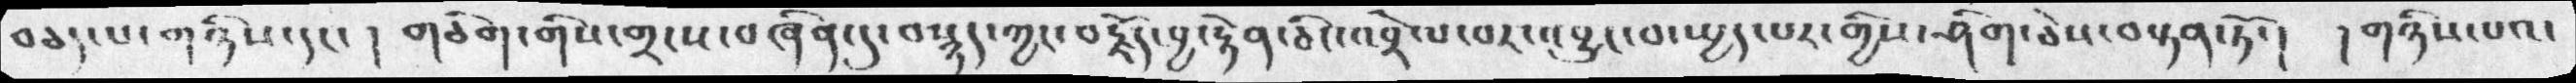བཅད་པ་གཉིས་དང་། གཅིག་གིས་གྲངས་བཞིན་དུ་བསྙད་ཀྱང་བརྗོད་བྱ་རྟེན་ཅིང་འབྲེལ་བར་འབྱུང་བ་སྤྱད་པར་གྱིས་ཤིག་ཅེས་བསྟན་ཏོ་། །གཉིས་པའ་
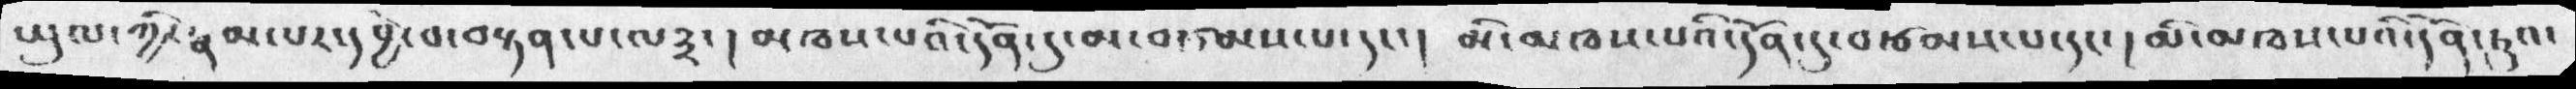ཡུལ་ཀྱི་རྣམ་པར་དབྱེ་བ་བསྟན་པ་ལ༣་། མཁས་པའི་དོན་དུ་མ་བཙམས་པ་དང་། མི་མཁས་པའི་དོན་དུ་བརྩམས་པ་དང་། མི་མཁས་པའི་དོན་ཏུའ་
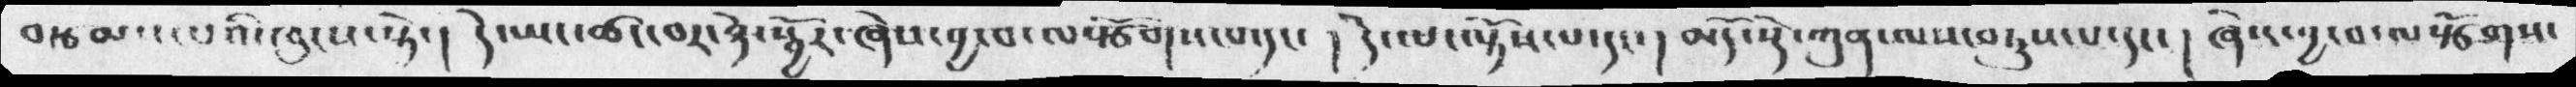བརྩམས་པའི་ཁུངས་སྟེ་། དེ་ཡང་ཚང་བར་ཉེ་སྦྱོར་ཞེས་བྱ་བ་ལསྩོགས་པ་དང་།  དེ་ལ་ལྟོས་པ་དང་། མདོ་སྡེ་ཀུན་ལས་བཏུས་པ་དང་། ཞེས་བྱ་བ་ལསྩོགས་
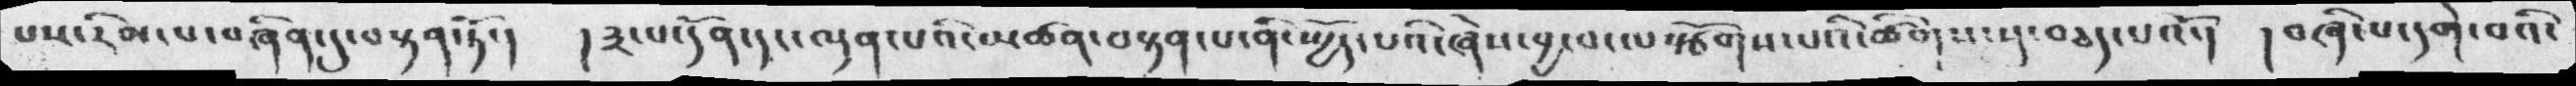པས་རིམ་པ་བཞིན་དུ་བསྟན་ཏོ་།   །༣་པ་དོན་དང་ལྡན་པའི་མཚན་བསྟན་པ་ནི་སྤྱོད་པའི་ཞེས་བྱ་བ་ལསྩོགས་པའི་ཚིགས་སུ་བཅད་པའོ་། །བཞི་པ་དགེ་བའི་
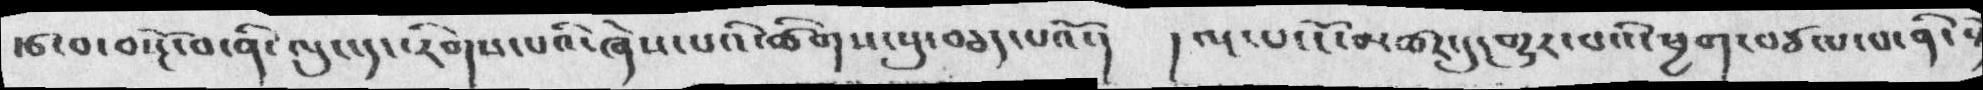རྩ་བ་བསྔོ་བ་ནི་ལུང་དང་རིགས་པའི་ཞེས་པའི་ཚིགས་སུ་བཅད་པའོ་།  །ལྔ་པ་ངོ་མཚར་དུ་གྱུར་བའི་ཕྱག་བཙལ་བ་ནི་
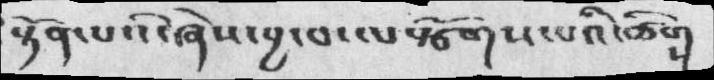སྟོན་པའི་ཞེས་བྱ་བ་ལསྩོགས་པའི་ཚིགས་
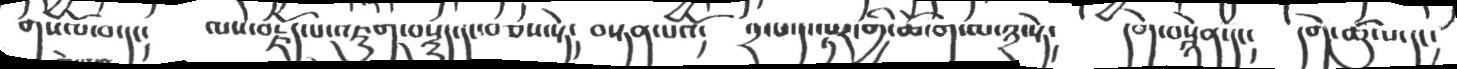གས་པོ་བ་དང།   ལས་བརྗོད་པ་འཇུག་བསྡུད་དང་བཅས་སྟེ།  བསྟན་པའོ།  བྲ་པ་ད་ལྟར་གྱི་ཆོ་ག་མ་༣་ཏེ།  དཔེད་བསྙེན་དང།  དགེ་ཚུ་པ་དང་
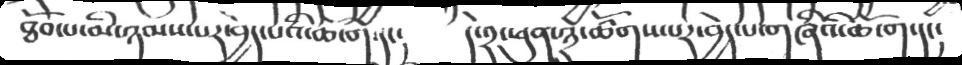ཐོབ་པ་མི་ཉམས་པར་བྱེད་པའི་ཆོ་ག་དང།   དེ་༢་ཕུན་༣་ཚོགས་པར་བྱེད་པ་གཞིའི་ཆོ་ག་དང།
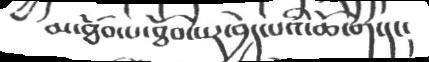མ་ཐོབ་པ་ཐོབ་པར་བྱེད་པའི་ཆོ་ག་དང།
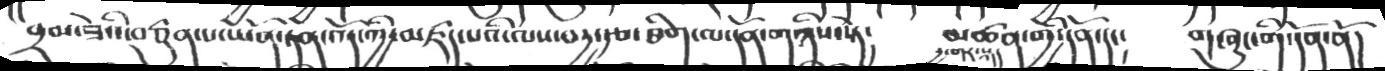བྲམ་ཟེའི་བཙུན་པ་ཡོན་ཏན་འོད་ཀྱི་མཛད་པའི་ལས་བརྱ་རྩ་ཐིག་ལ་དོན་གཉིས་ཏེ།    མཚན་གྱི་དོན་དང།   གཞུང་གི་དོན་ནོ།
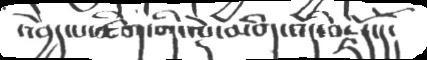འབྱེད་པ་ཚིག་གི་ལྡེ་མིག་འདི་བརྗོད་དོ།
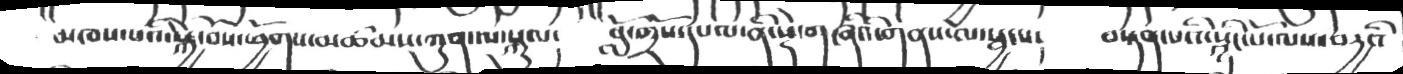མཁས་པའོ་སྐྱེ་བོས་ཕྱོགས་མཚམས་ཀུན་ལ་སྐུལ། བློ་གྲོས་དཔལ་ནི་སྡེ་གཞིའི་གནས་ལ་སྦྱངས། བསྟན་པའི་སྙིང་པོ་ལས་བརྱའི
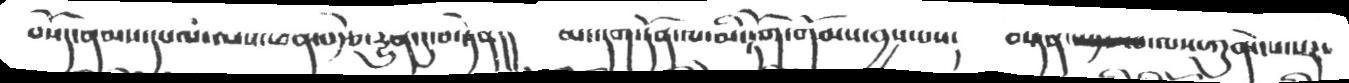བསོད་ནམས་དཔལ་ལས་ཕན་བརྩེ་རྱུན་དུ་བསྟེན། མང་དག་དོན་ལ་མི་རྟོག་གོམས་བྱས་པས། བསྟན་ ལས་ཀུན་ངེས་པར་
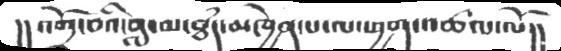།།འགྲོ་བའི་བླ་མ་ཐཾད་མཁྱེན་པ་ལ་ཕྱག་འཚལ་ལོ།།
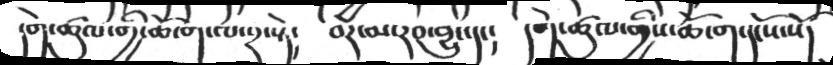དགེ་ཚུལ་གྱི་ཆོ་ག་ལ་༢་ཏེ།   བར་མ་རབ་བྱུང་དང།   །བདེ་ཚུལ་གྱིས་ཆོ་ག་དངོས་སོ།
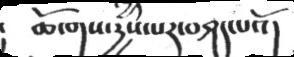ཆོ་གས་དྱས་པར་བཤད་པའོ།
